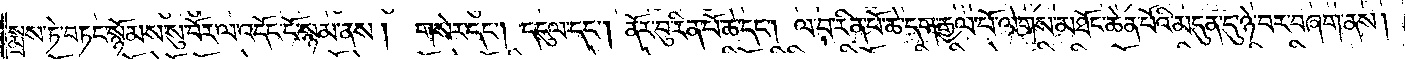སྨྲས་ཏེ་བཏང་སྙོམས་སུ་བོར་ལ་འདོང་ངོ་སྙམ་ནས། གསེར་དང༌། དངུལ་དང༌། ནོར་བུ་རིན་པོ་ཆེ་དང༌། ལ་བ་རིན་པོ་ཆེ་དག་རྒྱལ་པོ་ལེགས་མཐོང་ཆེན་པོའི་མདུན་དུ་ཉེ་བར་བཞག་ནས།
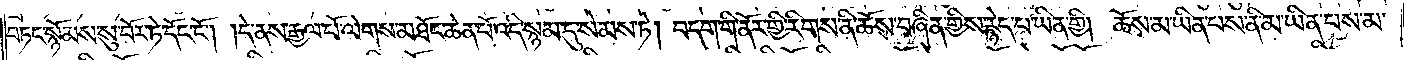བཏང་སྙོམས་སུ་བོར་ཏེ་དོང་ངོ༌། །དེ་ནས་རྒྱལ་པོ་ལེགས་མཐོང་ཆེན་པོ་འདི་སྙམ་དུ་སེམས་ཏེ། བདག་གི་ནོར་གྱི་རིགས་ནི་ཆོས་བཞིན་གྱིས་རྙེད་པ་ཡིན་གྱི། ཆོས་མ་ཡིན་པས་ནི་མ་ཡིན་པས་མ་
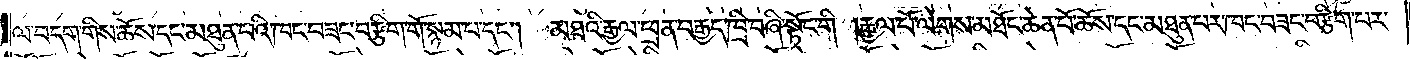ལ་བདག་གིས་ཆོས་དང་མཐུན་པའི་ཁང་བཟང་བརྩིག་གོ་སྙམ་པ་དང༌། མཐའི་རྒྱལ་ཕྲན་བརྒྱད་ཁྲི་བཞི་སྟོང་གི །རྒྱལ་པོ་ལེགས་མཐོང་ཆེན་པོ་ཆོས་དང་མཐུན་པར་ཁང་བཟང་བརྩིག་པར་
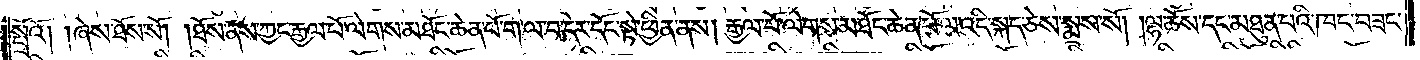སྤྲོའོ། །ཞེས་ཐོས་སོ། །ཐོས་ནས་ཀྱང་རྒྱལ་པོ་ལེགས་མཐོང་ཆེན་པོ་ག་ལ་བ་དེར་དོང་སྟེ་ཕྱིན་ནས། རྒྱལ་པོ་ལེགས་མཐོང་ཆེན་པོ་ལ་འདི་སྐད་ཅེས་སྨྲས་སོ། །ལྷ་ཆོས་དང་མཐུན་པའི་ཁང་བཟང་
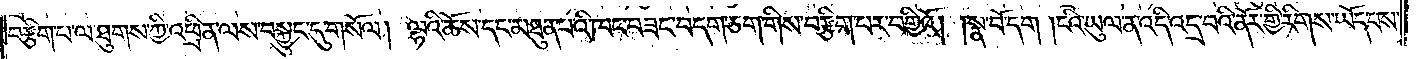བརྩིག་པ་ལ་ཐུགས་ཀྱི་འཕྲིན་ལས་བསྐྱུང་དུ་གསོལ། ལྷའི་ཆོས་དང་མཐུན་པའི་ཁང་བཟང་བདག་ཅག་གིས་བརྩིག་པར་བགྱིའོ། །སྣ་བོ་དག །ངའི་ཡུལ་ན་འདི་འདྲ་བའི་ནོར་གྱི་རིགས་ཡོད་པས་
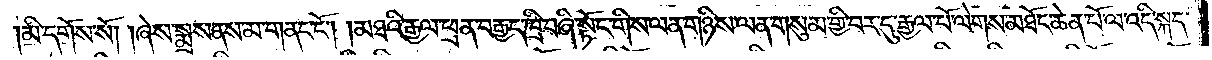མི་དགོས་སོ། །ཞེས་སྨྲས་ནས་མ་གནང་ངོ༌། །མཐའི་རྒྱལ་ཕྲན་བརྒྱད་ཁྲི་བཞི་སྟོང་གིས་ལན་གཉིས་ལན་གསུམ་གྱི་བར་དུ་རྒྱལ་པོ་ལེགས་མཐོང་ཆེན་པོ་ལ་འདི་སྐད་
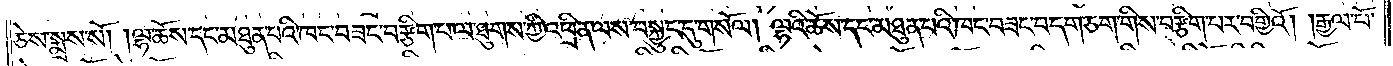ཅེས་སྨྲས་སོ། །ལྷ་ཆོས་དང་མཐུན་པའི་ཁང་བཟང་བརྩིག་པ་ལ་ཐུགས་ཀྱི་འཕྲིན་ལས་བསྐྱུང་དུ་གསོལ། ལྷའི་ཆོས་དང་མཐུན་པའི་ཁང་བཟང་བདག་ཅག་གིས་བརྩིག་པར་བགྱིའོ། །རྒྱལ་པོ་
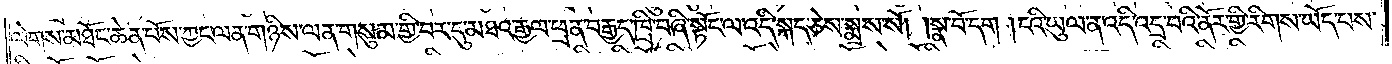ལེགས་མཐོང་ཆེན་པོས་ཀྱང་ལན་གཉིས་ལན་གསུམ་གྱི་བར་དུ་མཐའ་རྒྱལ་ཕྲན་བརྒྱད་ཁྲི་བཞི་སྟོང་ལ་འདི་སྐད་ཅེས་སྨྲས་སོ། །སྣ་བོ་དག །ངའི་ཡུལ་ན་འདི་འདྲ་བའི་ནོར་གྱི་རིགས་ཡོད་པས་
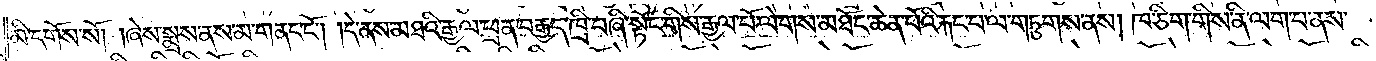མི་དགོས་སོ། །ཞེས་སྨྲས་ནས་མ་གནང་ངོ༌། །དེ་ནས་མཐའི་རྒྱལ་ཕྲན་བརྒྱད་ཁྲི་བཞི་སྟོང་གིས་རྒྱལ་པོ་ལེགས་མཐོང་ཆེན་པོའི་རྐང་པ་ལ་གཏུགས་ནས། ཁ་ཅིག་གིས་ནི་ལག་པ་ནས་
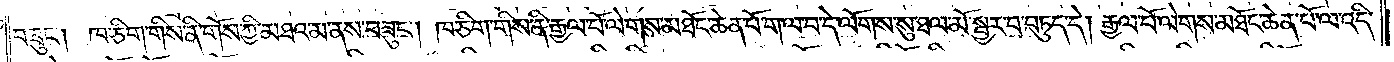བཟུང༌། ཁ་ཅིག་གིས་ནི་གོས་ཀྱི་མཐའ་མ་ནས་བཟུང༌། ཁ་ཅིག་གིས་ནི་རྒྱལ་པོ་ལེགས་མཐོང་ཆེན་པོ་ག་ལ་བ་དེ་ལོགས་སུ་ཐལ་མོ་སྦྱར་བ་བཏུད་དེ། རྒྱལ་པོ་ལེགས་མཐོང་ཆེན་པོ་ལ་འདི་
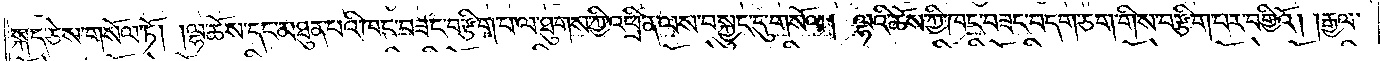སྐད་ཅེས་གསོལ་ཏོ། །ལྷ་ཆོས་དང་མཐུན་པའི་ཁང་བཟང་བརྩིག་པ་ལ་ཐུགས་ཀྱི་འཕྲིན་ལས་བསྐྱུང་དུ་གསོལ། ལྷའི་ཆོས་ཀྱི་ཁང་བཟང་བདག་ཅག་གིས་བརྩིག་པར་བགྱིའོ། །རྒྱལ་
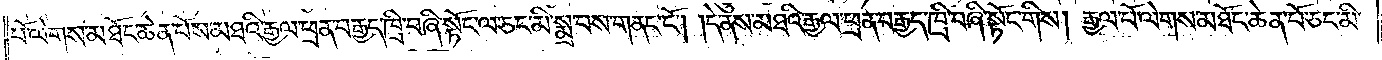པོ་ལེགས་མཐོང་ཆེན་པོས་མཐའི་རྒྱལ་ཕྲན་བརྒྱད་ཁྲི་བཞི་སྟོང་ལ་ཅང་མི་སྨྲ་བས་གནང་ངོ༌། །དེ་ནས་མཐའི་རྒྱལ་ཕྲན་བརྒྱད་ཁྲི་བཞི་སྟོང་གིས། རྒྱལ་པོ་ལེགས་མཐོང་ཆེན་པོ་ཅང་མི་
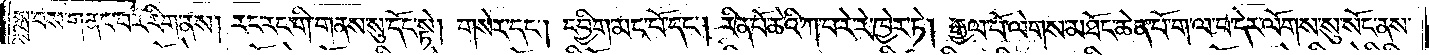སྨྲ་བས་གནང་བར་རིག་ནས། རང་རང་གི་གནས་སུ་དོང་སྟེ། གསེར་དང༌། དབྱིག་མང་པོ་དང༌། རིན་པོ་ཆེའི་ཀ་བ་རེ་རེ་ཁྱེར་ཏེ། རྒྱལ་པོ་ལེགས་མཐོང་ཆེན་པོ་ག་ལ་བ་དེར་ལོགས་སུ་སོང་ནས་
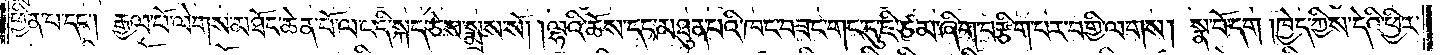ཕྱིན་པ་དང༌། རྒྱལ་པོ་ལེགས་མཐོང་ཆེན་པོ་ལ་འདི་སྐད་ཅེས་སྨྲས་སོ། །ལྷའི་ཆོས་དང་མཐུན་པའི་ཁང་བཟང་གང་དུ་ཇི་ཙམ་ཞིག་བརྩིག་པར་བགྱི་ལགས། སྣ་བོ་དག །ཁྱེད་ཀྱིས་དེའི་ཕྱིར་
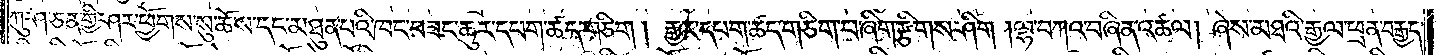ཀུ་ཤ་ཅན་གྱི་ཤར་ཕྱོགས་སུ་ཆོས་དང་མཐུན་པའི་ཁང་བཟང་ཆུར་དཔག་ཚད་གཅིག །རྒྱར་དཔག་ཚད་གཅིག་པ་ཞིག་རྩིགས་ཤིག །ལྷ་བཀའ་བཞིན་འཚལ། ཞེས་མཐའི་རྒྱལ་ཕྲན་བརྒྱད་
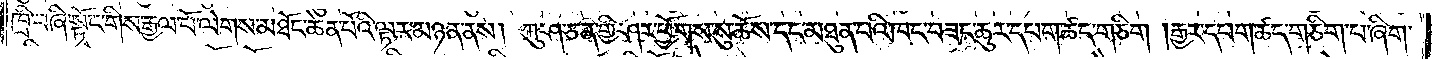ཁྲི་བཞི་སྟོང་གིས་རྒྱལ་པོ་ལེགས་མཐོང་ཆེན་པོའི་ལྟར་མཉན་ནས། ཀུ་ཤ་ཅན་གྱི་ཤར་ཕྱོགས་སུ་ཆོས་དང་མཐུན་པའི་ཁང་བཟང་ཆུར་དཔག་ཚད་གཅིག །རྒྱར་དཔག་ཚད་གཅིག་པ་ཞིག་
